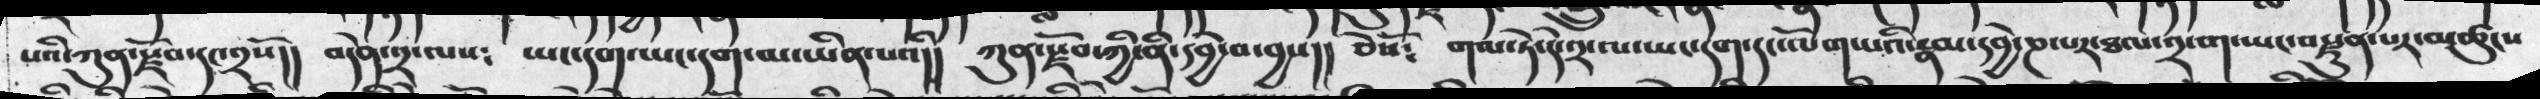པའི་ཀུན་སྫོབ་དང་༢སོ།།  བདེན་༢་ལས༴    ཡང་དག་ཡང་དག་མ་ཡིན་པའི།།   ཀུན་སྫོབ་ཀྱི་ནི་དབྱེ་བ་བྱས།།  ཅེསོ༴   གལ་ཏེ་དེ་༢་ལ་ཡང་དག་དང་ལོག་པའི་རྣམ་དབྱེ་ཎ་པར་ཐལ་༢་ག་ཡང་བརྫུན་པར་མཚུངས
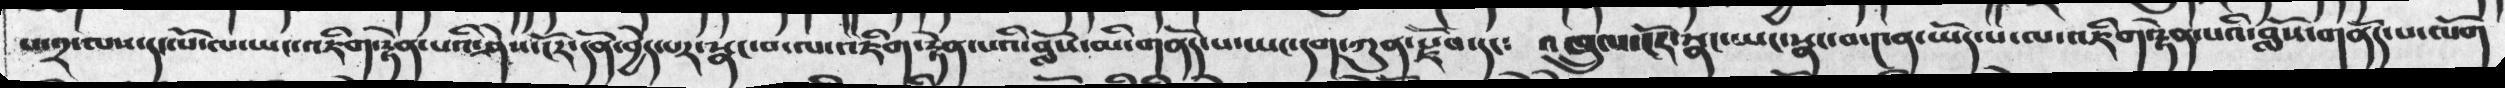པ་༢་ལས་དང་པོ་ལ་ཡང་འཇིག་རྟེན་པའི་ཤེས་ངོར་དོན་བྱེད་པར་སྣང་བ་ལ་འཇིག་རྟེན་པའི་བློས་མི་གནོད་པ་ཡང་དག་ཀུན་སྫོབ་དང༴  འཁྲུལ་ངོར་སྣང་ཡང་སྣང་བ་༤ན་ཡོད་པ་ལ་འཇིག་རྟེན་པའི་བློས་གནོད་པ་ལོག
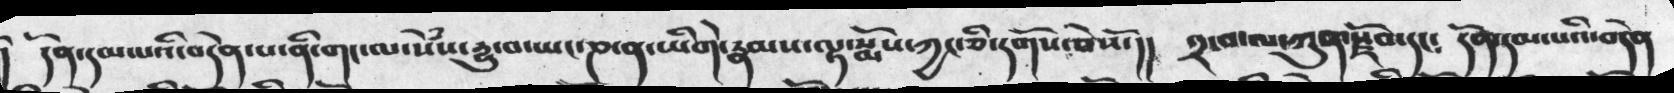།  དོན་དམ་པའི་བདེན་པ་ནི་གང་ལ་སེཾས་དྱུ་བ་ཡང་ཎ་ན་ཡིགེ་རྣམས་ལྟ་སྨོས་ཀྱང་ཅི་དགོས་ཅེསོ་།།   ༢་པ་ལ་ཀུན་སྫོབ་དང༴   དོན་དམ་པའི་བདེན
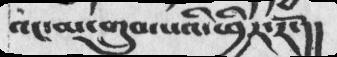འང་མ་གྲུབ་པའི་ཕྱིར་རོ་།།
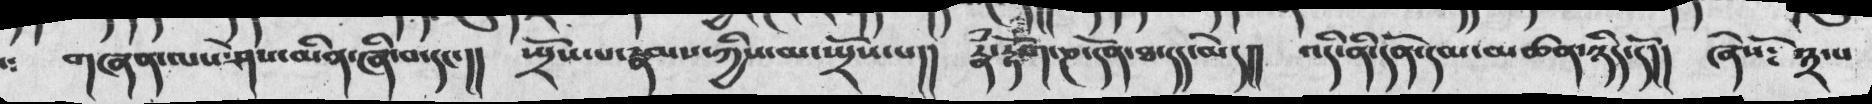གཞན་ལས་ཤེས་མིན་ཞི་བ་དང་།།    སྤྲོས་པ་རྣམས་ཀྱིས་མ་སྤྲོས་པ།།   རྣྃ་རྟོག་ཎ་དོན་ཐ་དང་མེད།།   འདི་ནི་དོན་དམ་མཚན་ཉིད་དོ།།   ཞེསོ༴ ༣་པ
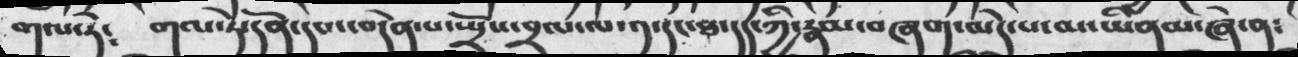གལ་ཏེ༴   གལ་ཏེ་དོན་དམ་བདེན་པ་སྤྲོས་བྲལ་ལ་༡་དང་ཐ་དད་ཀྱི་རྣམ་བཞག་མེད་པ་མ་ཡིནམ་ཞེ་ན༴
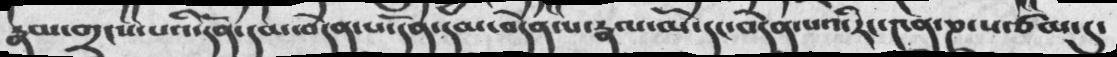རྣམ་གྲངས་པའི་དོན་དམ་བདེན་པ་དོན་དམ་བདེན་པ་རྣལ་མོ་དང་བདེན་པའི་རང་༤ན་ཎ་པ་ཙམ་དུ་
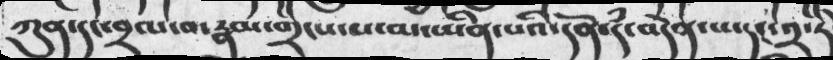ཀུན་དང་བྲལ་བ་རྣམ་གྲངས་པ་མ་ཡིན་པའི་དོན་དཾ་བདེན་པ་དང་༢་ཏེ
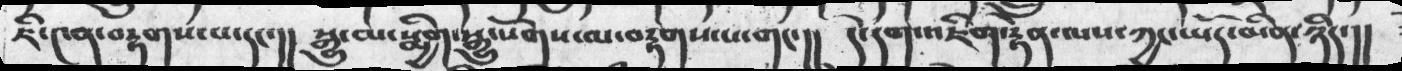ཇི་༤ན་བརྟགས་པ་དང་།།   སྒྱུ་མ་སྨིག་སྒྱུ་སོགས་མ་བརྟགས་པ་གང་།།  དེ་དག་འཇིག་རྟེན་ལས་ཀྱང་ཡོད་མིན་ཉིད་།།
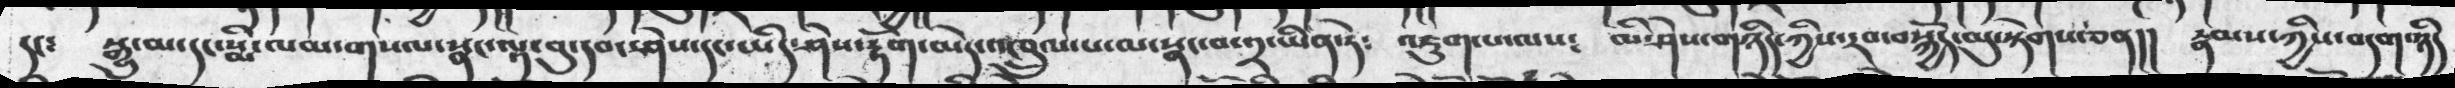དང་   སྒྱུ་མ་དང་སྨི་ལམ་གསལ་སྣང་ལྟ་བུ་དབང་ཤེས་དང་ཡིད་ཤེས་རྟོག་མེད་འཁྲུལ་པ་ལ་སྣང་བ་༢་ཡིན་ཏེ༴  འཇུག་པ་ལས༴  མི་ཤེས་གཉིད་ཀྱིས་རབ་བསྐྱོད་མུ་སྟེགས་ཅན།།    རྣམས་ཀྱིས་བདག་ཉིད
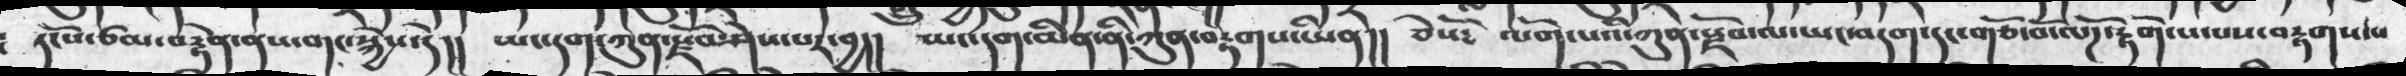དང་པོ་ཙམ་བརྟེན་ནས་གང་སྐྱེས་དེ།།  ཡང་དག་ཀུན་སྫོབ་ཤེས་པར་བྱ།།  ཡང་དག་མིན་ནི་ཀུན་བརྟགས་ཡིན།།  ཅེསོ༴   ལོག་པའི་ཀུན་སྫོབ་ལ་ཡང་བདག་དང་གཙོ་བོ་ལོཌ་རྟོགས་པས་བརྟགས་པ
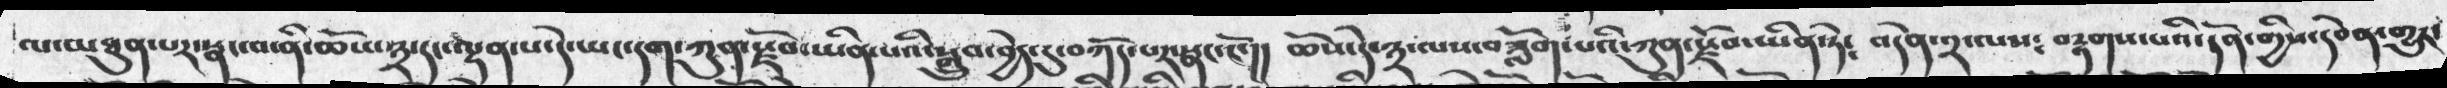ལ་མཐུན་པར་སྣང་བ་ནི་ཆོས་༣་དང་ལྡན་པ་དེ་ཡང་དག་ཀུན་སྫོབ་ཡིན་པའི་སྒྲུབ་བྱེད་དུ་བཀོད་པར་སྣང་ངོ་།།  ཆོས་དེ་༣་ལས་བཟློག་པའི་ཀུན་སྫོབ་ཡིན་ཏེ༴   བདེན་༢་ལས༴   བརྟགས་པའི་དོན་གྱིས་དབེན་གྱུར་
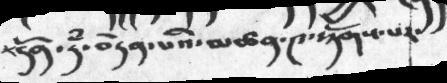+དོན་དཾ་བདེན་པའི་མཚན་༤་རྟོགས་པར་
